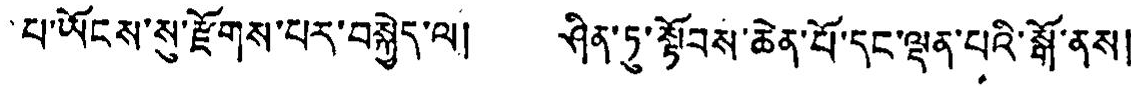པ་ཡོངས་སུ་རྫོགས་པར་བསྐྱེད་ལ། ཤིན་ཏུ་སྟོབས་ཆེན་པོ་དང་ལྡན་པའི་སྒོ་ནས།
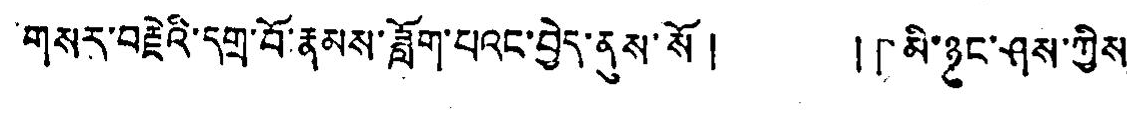གསར་བརྗེའི་དགྲ་བོ་རྣམས་ཟློག་པའང་བྱེད་ནུས་སོ ། །「མི་ཉུང་ཤས་ཀྱིས་
